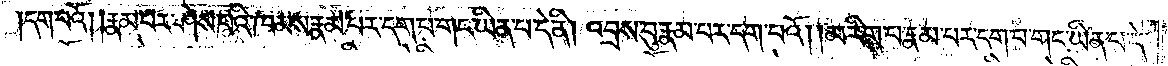དག་པའོ། །རྣམ་པར་ཤེས་པའི་ཁམས་རྣམ་པར་དག་པ་གང་ཡིན་པ་དེ་ནི། འབྲས་བུ་རྣམ་པར་དག་པའོ། །མ་རིག་པ་རྣམ་པར་དག་པ་གང་ཡིན་པ་དེ་
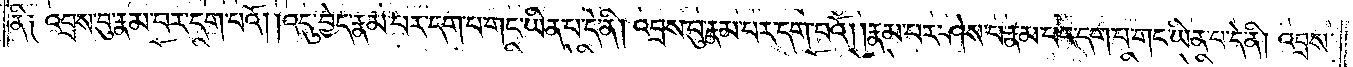ནི༑ འབྲས་བུ་རྣམ་པར་དག་པའོ། །འདུ་བྱེད་རྣམ་པར་དག་པ་གང་ཡིན་པ་དེ་ནི། འབྲས་བུ་རྣམ་པར་དག་པའོ། །རྣམ་པར་ཤེས་པ་རྣམ་པར་དག་པ་གང་ཡིན་པ་དེ་ནི། འབྲས་
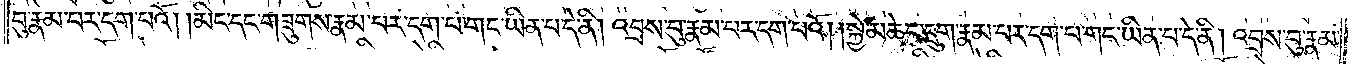བུ་རྣམ་པར་དག་པའོ། །མིང་དང་གཟུགས་རྣམ་པར་དག་པ་གང་ཡིན་པ་དེ་ནི། འབྲས་བུ་རྣམ་པར་དག་པའོ། །སྐྱེ་མཆེད་དྲུག་རྣམ་པར་དག་པ་གང་ཡིན་པ་དེ་ནི། འབྲས་བུ་རྣམ་
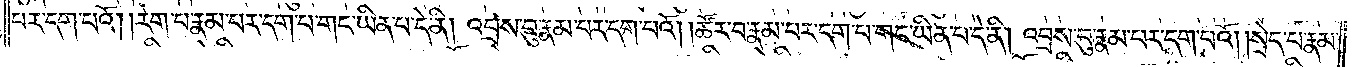པར་དག་པའོ། །རེག་པ་རྣམ་པར་དག་པ་གང་ཡིན་པ་དེ་ནི། འབྲས་བུ་རྣམ་པར་དག་པའོ། །ཚོར་བ་རྣམ་པར་དག་པ་གང་ཡིན་པ་དེ་ནི། འབྲས་བུ་རྣམ་པར་དག་པའོ། །སྲེད་པ་རྣམ་
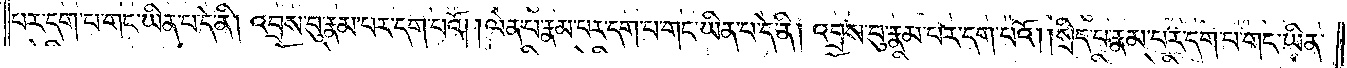པར་དག་པ་གང་ཡིན་པ་དེ་ནི། འབྲས་བུ་རྣམ་པར་དག་པའོ། །ལེན་པ་རྣམ་པར་དག་པ་གང་ཡིན་པ་དེ་ནི། འབྲས་བུ་རྣམ་པར་དག་པའོ། །སྲིད་པ་རྣམ་པར་དག་པ་གང་ཡིན་
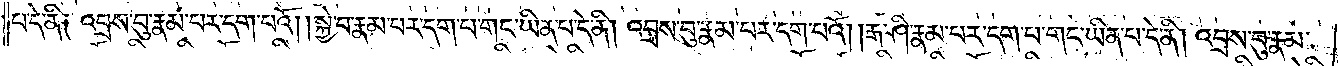པ་དེ་ནི༑ འབྲས་བུ་རྣམ་པར་དག་པའོ། །སྐྱེ་བ་རྣམ་པར་དག་པ་གང་ཡིན་པ་དེ་ནི། འབྲས་བུ་རྣམ་པར་དག་པའོ། །རྒ་ཤི་རྣམ་པར་དག་པ་གང་ཡིན་པ་དེ་ནི། འབྲས་བུ་རྣམ་
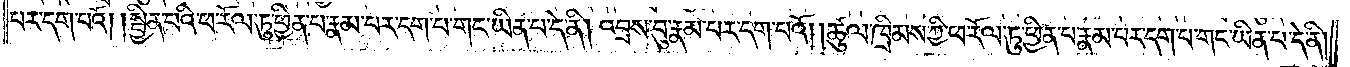པར་དག་པའོ། །སྦྱིན་པའི་ཕ་རོལ་ཏུ་ཕྱིན་པ་རྣམ་པར་དག་པ་གང་ཡིན་པ་དེ་ནི། འབྲས་བུ་རྣམ་པར་དག་པའོ། །ཚུལ་ཁྲིམས་ཀྱི་ཕ་རོལ་ཏུ་ཕྱིན་པ་རྣམ་པར་དག་པ་གང་ཡིན་པ་དེ་ནི།
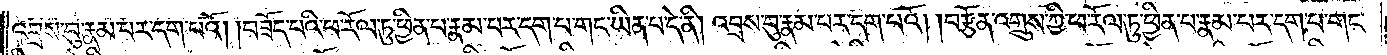འབྲས་བུ་རྣམ་པར་དག་པའོ། །བཟོད་པའི་ཕ་རོལ་ཏུ་ཕྱིན་པ་རྣམ་པར་དག་པ་གང་ཡིན་པ་དེ་ནི། འབྲས་བུ་རྣམ་པར་དག་པའོ། །བརྩོན་འགྲུས་ཀྱི་ཕ་རོལ་ཏུ་ཕྱིན་པ་རྣམ་པར་དག་པ་གང་
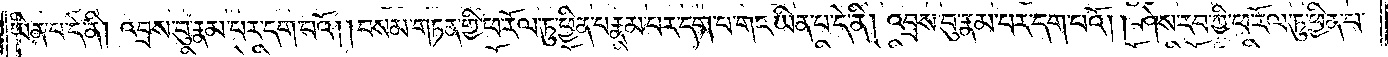ཡིན་པ་དེ་ནི། འབྲས་བུ་རྣམ་པར་དག་པའོ། །བསམ་གཏན་གྱི་ཕ་རོལ་ཏུ་ཕྱིན་པ་རྣམ་པར་དག་པ་གང་ཡིན་པ་དེ་ནི། འབྲས་བུ་རྣམ་པར་དག་པའོ། །ཤེས་རབ་ཀྱི་ཕ་རོལ་ཏུ་ཕྱིན་པ་
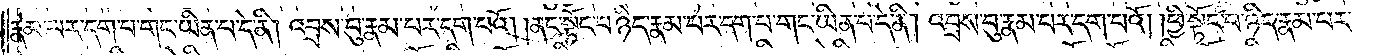རྣམ་པར་དག་པ་གང་ཡིན་པ་དེ་ནི། འབྲས་བུ་རྣམ་པར་དག་པའོ། །ནང་སྟོང་པ་ཉིད་རྣམ་པར་དག་པ་གང་ཡིན་པ་དེ་ནི། འབྲས་བུ་རྣམ་པར་དག་པའོ། །ཕྱི་སྟོང་པ་ཉིད་རྣམ་པར་
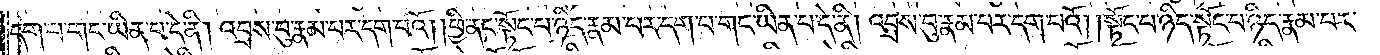དག་པ་གང་ཡིན་པ་དེ་ནི། འབྲས་བུ་རྣམ་པར་དག་པའོ། །ཕྱི་ནང་སྟོང་པ་ཉིད་རྣམ་པར་དག་པ་གང་ཡིན་པ་དེ་ནི། འབྲས་བུ་རྣམ་པར་དག་པའོ། །སྟོང་པ་ཉིད་སྟོང་པ་ཉིད་རྣམ་པར་
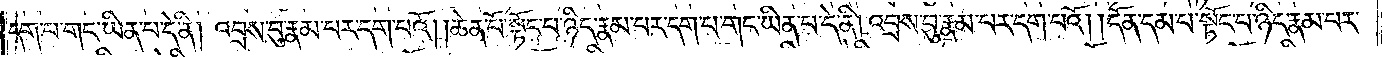དག་པ་གང་ཡིན་པ་དེ་ནི། འབྲས་བུ་རྣམ་པར་དག་པའོ། །ཆེན་པོ་སྟོང་པ་ཉིད་རྣམ་པར་དག་པ་གང་ཡིན་པ་དེ་ནི། འབྲས་བུ་རྣམ་པར་དག་པའོ། །དོན་དམ་པ་སྟོང་པ་ཉིད་རྣམ་པར་
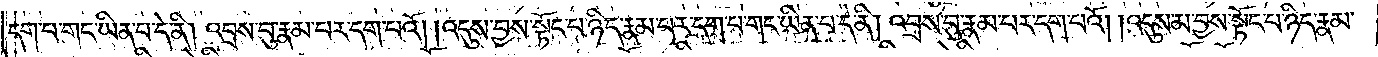དག་པ་གང་ཡིན་པ་དེ་ནི། འབྲས་བུ་རྣམ་པར་དག་པའོ། །འདུས་བྱས་སྟོང་པ་ཉིད་རྣམ་པར་དག་པ་གང་ཡིན་པ་དེ་ནི། འབྲས་བུ་རྣམ་པར་དག་པའོ། །འདུས་མ་བྱས་སྟོང་པ་ཉིད་རྣམ་
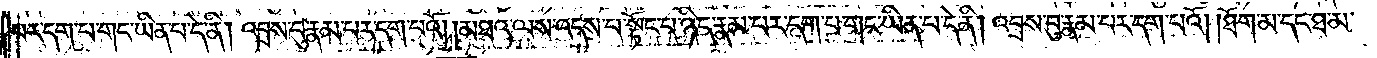པར་དག་པ་གང་ཡིན་པ་དེ་ནི། འབྲས་བུ་རྣམ་པར་དག་པའོ། །མཐའ་ལས་འདས་པ་སྟོང་པ་ཉིད་རྣམ་པར་དག་པ་གང་ཡིན་པ་དེ་ནི། འབྲས་བུ་རྣམ་པར་དག་པའོ། །ཐོག་མ་དང་ཐ་མ་
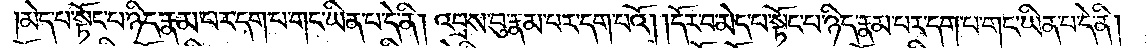མེད་པ་སྟོང་པ་ཉིད་རྣམ་པར་དག་པ་གང་ཡིན་པ་དེ་ནི། འབྲས་བུ་རྣམ་པར་དག་པའོ། །དོར་བ་མེད་པ་སྟོང་པ་ཉིད་རྣམ་པར་དག་པ་གང་ཡིན་པ་དེ་ནི།
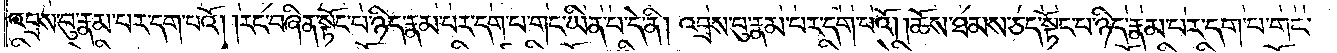འབྲས་བུ་རྣམ་པར་དག་པའོ། །རང་བཞིན་སྟོང་པ་ཉིད་རྣམ་པར་དག་པ་གང་ཡིན་པ་དེ་ནི། འབྲས་བུ་རྣམ་པར་དག་པའོ། །ཆོས་ཐམས་ཅད་སྟོང་པ་ཉིད་རྣམ་པར་དག་པ་གང་
